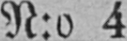N:o 4
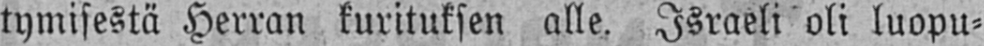tymisestä Herran kurituksen alle. Israeli oli luopu-
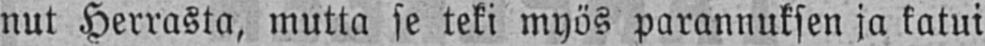nut Herrasta, mutta se teki myös parannuksen ja katui
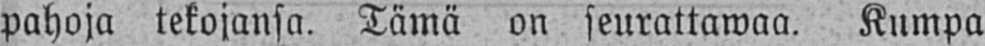pahoja tekojansa. Tämä on seurattawan. Kumpa
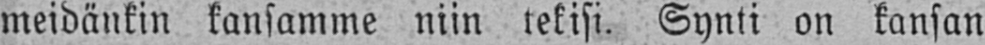meidänkin kansamme niin tekisi. Synti on kansan
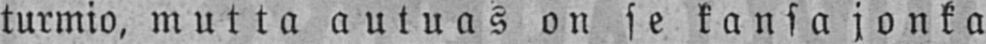turmio, mutta autuas on se kansa jonka
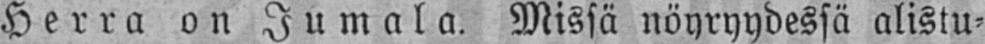Herra on Jumala. Missä nöyryydessä alistu-
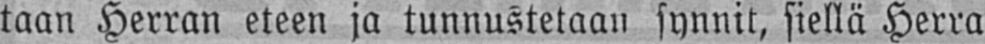taan Herran eteen ja tunnustetaan synnit, siellä Herra
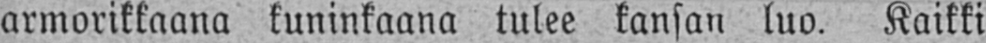armorikkaana kuninkaana tulee kansan luo. Kaikki
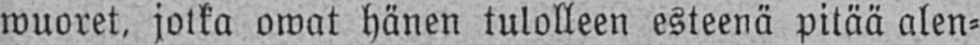wuoret. jotka owat hänen tulolleen esteenä pitää alen-
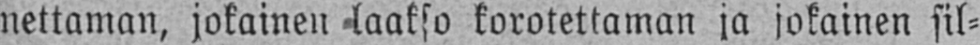nettaman, jokainen laakso korotettaman ja jokainen sil-
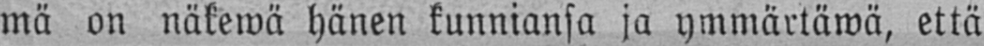mä on näkewä hänen kunniansa ja ymmärtäwä, että
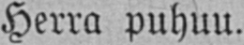Herra puhuu.
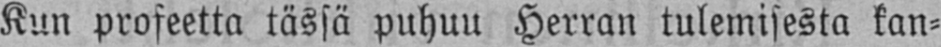Kun profeetta tässä puhuu Herran tulemisesta kan-
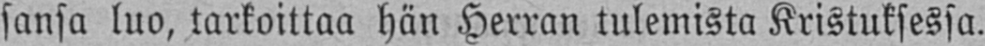sansa luo, tarkoittaa hän Herran tulemista Kristuksessa.
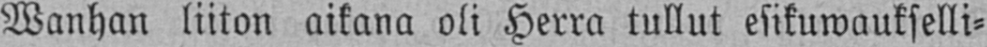Wanhan liiton aikana oli Herra tullut esikuwaukselli-
